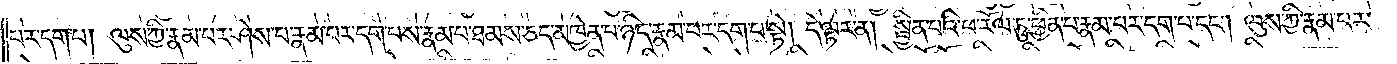པར་དག་པ། ལུས་ཀྱི་རྣམ་པར་ཤེས་པ་རྣམ་པར་དག་པས་རྣམ་པ་ཐམས་ཅད་མཁྱེན་པ་ཉིད་རྣམ་པར་དག་པ་སྟེ། དེ་ལྟར་ན། སྦྱིན་པའི་ཕ་རོལ་ཏུ་ཕྱིན་པ་རྣམ་པར་དག་པ་དང༌། ལུས་ཀྱི་རྣམ་པར་
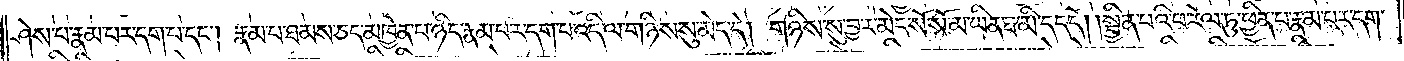ཤེས་པ་རྣམ་པར་དག་པ་དང༌། རྣམ་པ་ཐམས་ཅད་མཁྱེན་པ་ཉིད་རྣམ་པར་དག་པ་འདི་ལ་གཉིས་སུ་མེད་དེ། གཉིས་སུ་བྱར་མེད་སོ་སོ་མ་ཡིན་ཐ་མི་དད་དོ། །སྦྱིན་པའི་ཕ་རོལ་ཏུ་ཕྱིན་པ་རྣམ་པར་དག་
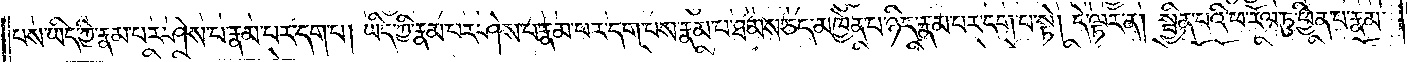པས་ཡིད་ཀྱི་རྣམ་པར་ཤེས་པ་རྣམ་པར་དག་པ། ཡིད་ཀྱི་རྣམ་པར་ཤེས་པ་རྣམ་པར་དག་པས་རྣམ་པ་ཐམས་ཅད་མཁྱེན་པ་ཉིད་རྣམ་པར་དག་པ་སྟེ། དེ་ལྟར་ན། སྦྱིན་པའི་ཕ་རོལ་ཏུ་ཕྱིན་པ་རྣམ་
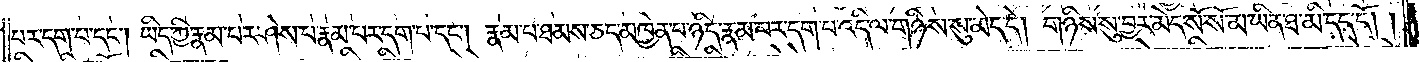པར་དག་པ་དང༌། ཡིད་ཀྱི་རྣམ་པར་ཤེས་པ་རྣམ་པར་དག་པ་དང༌། རྣམ་པ་ཐམས་ཅད་མཁྱེན་པ་ཉིད་རྣམ་པར་དག་པ་འདི་ལ་གཉིས་སུ་མེད་དེ། གཉིས་སུ་བྱར་མེད་སོ་སོ་མ་ཡིན་ཐ་མི་དད་དོ། །
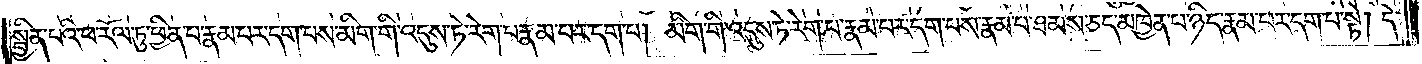སྦྱིན་པའི་ཕ་རོལ་ཏུ་ཕྱིན་པ་རྣམ་པར་དག་པས་མིག་གི་འདུས་ཏེ་རེག་པ་རྣམ་པར་དག་པ། མིག་གི་འདུས་ཏེ་རེག་པ་རྣམ་པར་དག་པས་རྣམ་པ་ཐམས་ཅད་མཁྱེན་པ་ཉིད་རྣམ་པར་དག་པ་སྟེ། དེ་
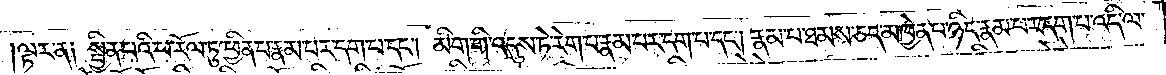ལྟར་ན༑ སྦྱིན་པའི་ཕ་རོལ་ཏུ་ཕྱིན་པ་རྣམ་པར་དག་པ་དང༌། མིག་གི་འདུས་ཏེ་རེག་པ་རྣམ་པར་དག་པ་དང༌། རྣམ་པ་ཐམས་ཅད་མཁྱེན་པ་ཉིད་རྣམ་པར་དག་པ་འདི་ལ་
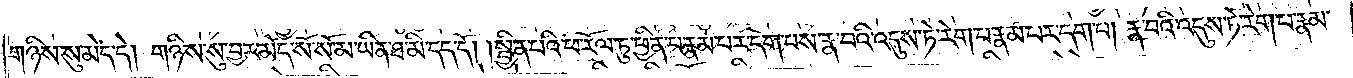གཉིས་སུ་མེད་དེ། གཉིས་སུ་བྱར་མེད་སོ་སོ་མ་ཡིན་ཐ་མི་དད་དོ། །སྦྱིན་པའི་ཕ་རོལ་ཏུ་ཕྱིན་པ་རྣམ་པར་དག་པས་རྣ་བའི་འདུས་ཏེ་རེག་པ་རྣམ་པར་དག་པ། རྣ་བའི་འདུས་ཏེ་རེག་པ་རྣམ་
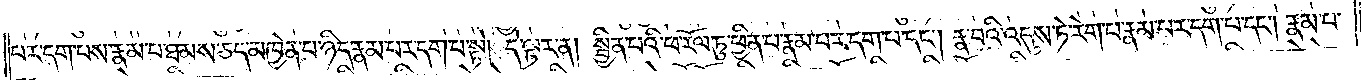པར་དག་པས་རྣམ་པ་ཐམས་ཅད་མཁྱེན་པ་ཉིད་རྣམ་པར་དག་པ་སྟེ། དེ་ལྟར་ན། སྦྱིན་པའི་ཕ་རོལ་ཏུ་ཕྱིན་པ་རྣམ་པར་དག་པ་དང༌། རྣ་བའི་འདུས་ཏེ་རེག་པ་རྣམ་པར་དག་པ་དང༌། རྣམ་པ་
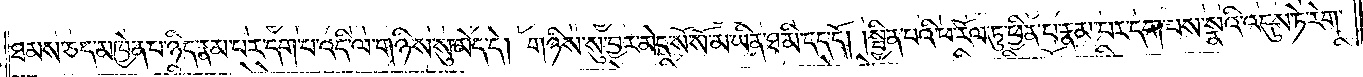ཐམས་ཅད་མཁྱེན་པ་ཉིད་རྣམ་པར་དག་པས་འདི་ལ་གཉིས་སུ་མེད་དེ། གཉིས་སུ་བྱར་མེད་སོ་སོ་མ་ཡིན་ཐ་མི་དད་དོ། །སྦྱིན་པའི་ཕ་རོལ་ཏུ་ཕྱིན་པ་རྣམ་པར་དག་པས་སྣའི་འདུས་ཏེ་རེག་
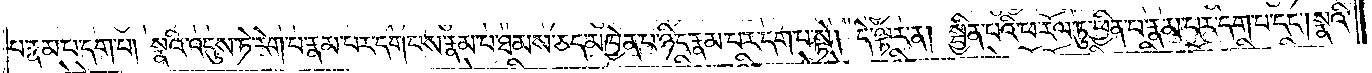པ་རྣམ་པར་དག་པ། སྣའི་འདུས་ཏེ་རེག་པ་རྣམ་པར་དག་པས་རྣམ་པ་ཐམས་ཅད་མཁྱེན་པ་ཉིད་རྣམ་པར་དག་པ་སྟེ། དེ་ལྟར་ན། སྦྱིན་པའི་ཕ་རོལ་ཏུ་ཕྱིན་པ་རྣམ་པར་དག་པ་དང༌། སྣའི་
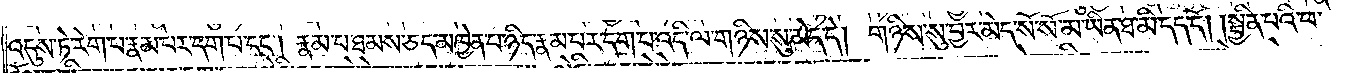འདུས་ཏེ་རེག་པ་རྣམ་པར་དག་པ་དང༌། རྣམ་པ་ཐམས་ཅད་མཁྱེན་པ་ཉིད་རྣམ་པར་དག་པ་འདི་ལ་གཉིས་སུ་མེད་དེ། གཉིས་སུ་བྱར་མེད་སོ་སོ་མ་ཡིན་ཐ་མི་དད་དོ། །སྦྱིན་པའི་ཕ་
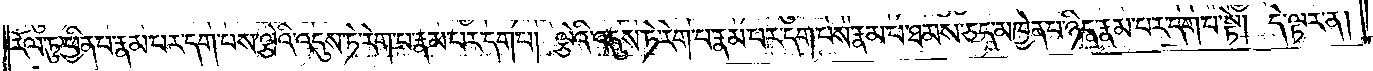རོལ་ཏུ་ཕྱིན་པ་རྣམ་པར་དག་པས་ལྕེའི་འདུས་ཏེ་རེག་པ་རྣམ་པར་དག་པ། ལྕེའི་འདུས་ཏེ་རེག་པ་རྣམ་པར་དག་པས་རྣམ་པ་ཐམས་ཅད་མཁྱེན་པ་ཉིད་རྣམ་པར་དག་པ་སྟེ། དེ་ལྟར་ན།
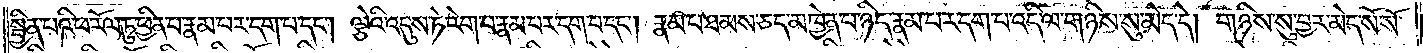སྦྱིན་པའི་ཕ་རོལ་ཏུ་ཕྱིན་པ་རྣམ་པར་དག་པ་དང༌། ལྕེའི་འདུས་ཏེ་རེག་པ་རྣམ་པར་དག་པ་དང༌། རྣམ་པ་ཐམས་ཅད་མཁྱེན་པ་ཉིད་རྣམ་པར་དག་པ་འདི་ལ་གཉིས་སུ་མེད་དེ། གཉིས་སུ་བྱར་མེད་སོ་སོ་
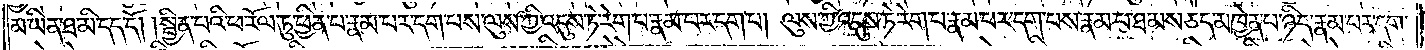མ་ཡིན་ཐ་མི་དད་དོ། །སྦྱིན་པའི་ཕ་རོལ་ཏུ་ཕྱིན་པ་རྣམ་པར་དག་པས་ལུས་ཀྱི་འདུས་ཏེ་རེག་པ་རྣམ་པར་དག་པ། ལུས་ཀྱི་འདུས་ཏེ་རེག་པ་རྣམ་པར་དག་པས་རྣམ་པ་ཐམས་ཅད་མཁྱེན་པ་ཉིད་རྣམ་པར་དག་
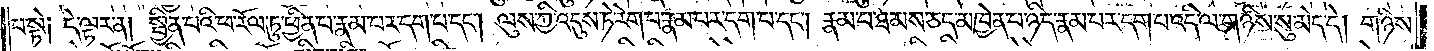པ་སྟེ༑ དེ་ལྟར་ན། སྦྱིན་པའི་ཕ་རོལ་ཏུ་ཕྱིན་པ་རྣམ་པར་དག་པ་དང༌། ལུས་ཀྱི་འདུས་ཏེ་རེག་པ་རྣམ་པར་དག་པས་དང༌། རྣམ་པ་ཐམས་ཅད་མཁྱེན་པ་ཉིད་རྣམ་པར་དག་པ་འདི་ལ་གཉིས་སུ་མེད་དེ། གཉིས་
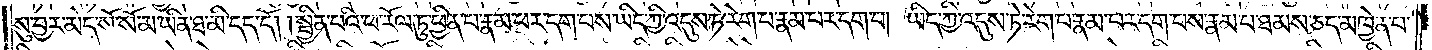སུ་བྱར་མེད་སོ་སོ་མ་ཡིན་ཐ་མི་དད་དོ། །སྦྱིན་པའི་ཕ་རོལ་ཏུ་ཕྱིན་པ་རྣམ་པར་དག་པས་ཡིད་ཀྱི་འདུས་ཏེ་རེག་པ་རྣམ་པར་དག་པ། ཡིད་ཀྱི་འདུས་ཏེ་རེག་པ་རྣམ་པར་དག་པས་རྣམ་པ་ཐམས་ཅད་མཁྱེན་པ་
